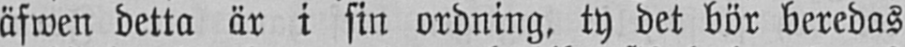äfwen detta är i sin ordning, ty det bör beredas
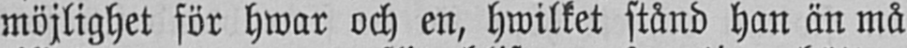möjlighet för hwar och en, hwilket stånd han än må
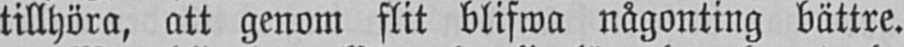tillhöra, att genom flit blifwa någonting bättre.
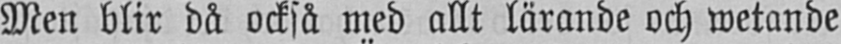Men blir då också med allt lärande och wetande
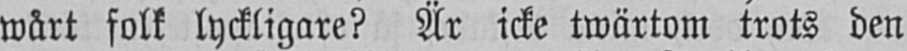wårt folk lyckligare? Är icke twärtom trots den
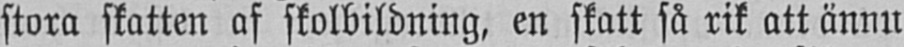stora skatten af skolbildning, en skatt så rik att ännu
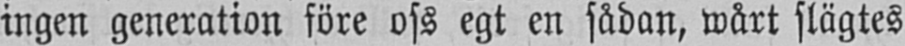ingen generation före oss egt en sådan, wårt slägtes
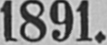l891.
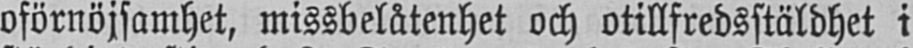oförnöjsamhet, missbelåtenhet och otillfredsstäldhet i
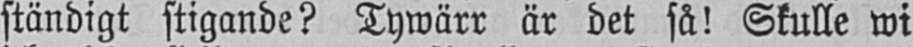ständigt stigande? Tywärr är det så! Skulle wi
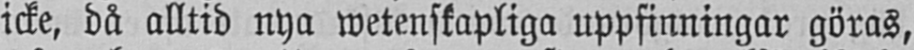icke, då alltid nya wetenskapliga uppfinningar göras,
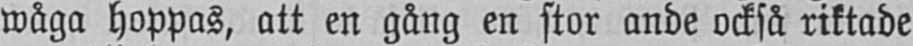wåga hoppas, att en gång en stor ande också riktade
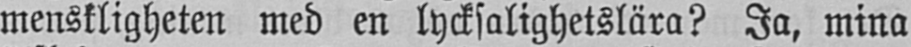menskligheten med en lycksalighetslära? Ja, mina
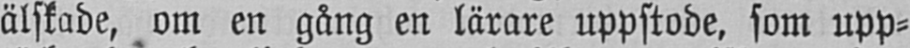älskade, om en gång en lärare uppstode, som upp-
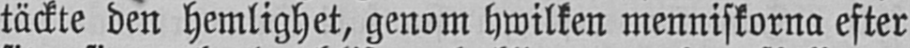täckte den hemlighet, genom hwilken menniskorna efter
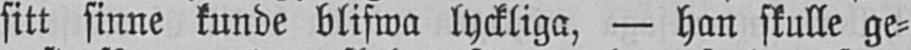sitt sinne kunde blifwa lyckliga, — han skulle ge-
